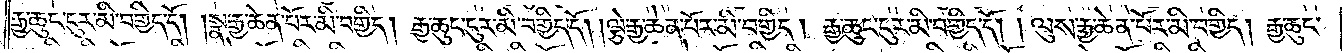རྒྱ་ཆུང་ངུར་མི་བགྱིད་དོ། །སྣ་རྒྱ་ཆེན་པོར་མི་བགྱིད། རྒྱ་ཆུང་ངུར་མི་བགྱིད་དོ། །ལྕེ་རྒྱ་ཆེན་པོར་མི་བགྱིད། རྒྱ་ཆུང་ངུར་མི་བགྱིད་དོ། །ལུས་རྒྱ་ཆེན་པོར་མི་བགྱིད། རྒྱ་ཆུང་
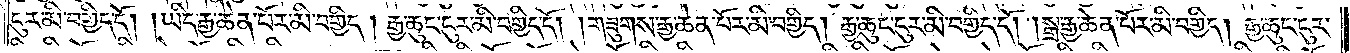ངུར་མི་བགྱིད་དོ། །ཡིད་རྒྱ་ཆེན་པོར་མི་བགྱིད། རྒྱ་ཆུང་ངུར་མི་བགྱིད་དོ། །གཟུགས་རྒྱ་ཆེན་པོར་མི་བགྱིད། རྒྱ་ཆུང་ངུར་མི་བགྱིད་དོ། །སྒྲ་རྒྱ་ཆེན་པོར་མི་བགྱིད། རྒྱ་ཆུང་ངུར་
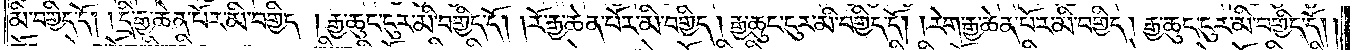མི་བགྱིད་དོ། །དྲི་རྒྱ་ཆེན་པོར་མི་བགྱིད། རྒྱ་ཆུང་ངུར་མི་བགྱིད་དོ། །རོ་རྒྱ་ཆེན་པོར་མི་བགྱིད། རྒྱ་ཆུང་ངུར་མི་བགྱིད་དོ། །རེག་རྒྱ་ཆེན་པོར་མི་བགྱིད། རྒྱ་ཆུང་ངུར་མི་བགྱིད་དོ། །
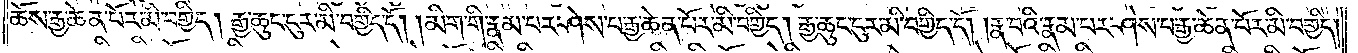ཆོས་རྒྱ་ཆེན་པོར་མི་བགྱིད། རྒྱ་ཆུང་ངུར་མི་བགྱིད་དོ། །མིག་གི་རྣམ་པར་ཤེས་པ་རྒྱ་ཆེན་པོར་མི་བགྱིད། རྒྱ་ཆུང་ངུར་མི་བགྱིད་དོ། །རྣ་བའི་རྣམ་པར་ཤེས་པ་རྒྱ་ཆེན་པོར་མི་བགྱིད།
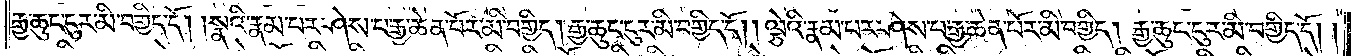རྒྱ་ཆུང་ངུར་མི་བགྱིད་དོ། །སྣའི་རྣམ་པར་ཤེས་པ་རྒྱ་ཆེན་པོར་མི་བགྱིད། རྒྱ་ཆུང་ངུར་མི་བགྱིད་དོ། །ལྕེའི་རྣམ་པར་ཤེས་པ་རྒྱ་ཆེན་པོར་མི་བགྱིད། རྒྱ་ཆུང་ངུར་མི་བགྱིད་དོ། །
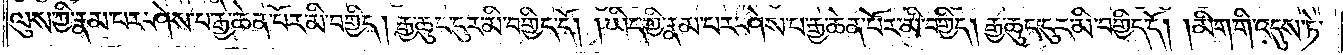ལུས་ཀྱི་རྣམ་པར་ཤེས་པ་རྒྱ་ཆེན་པོར་མི་བགྱིད། རྒྱ་ཆུང་ངུར་མི་བགྱིད་དོ། །ཡིད་ཀྱི་རྣམ་པར་ཤེས་པ་རྒྱ་ཆེན་པོར་མི་བགྱིད། རྒྱ་ཆུང་ངུར་མི་བགྱིད་དོ། །མིག་གི་འདུས་ཏེ་
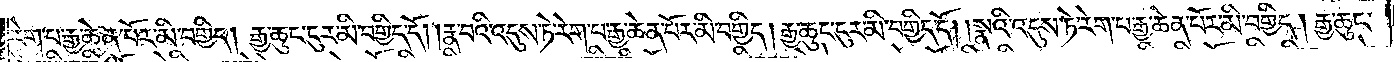རེག་པ་རྒྱ་ཆེན་པོར་མི་བགྱིད། རྒྱ་ཆུང་ངུར་མི་བགྱིད་དོ། །རྣ་བའི་འདུས་ཏེ་རེག་པ་རྒྱ་ཆེན་པོར་མི་བགྱིད། རྒྱ་ཆུང་ངུར་མི་བགྱིད་དོ། །སྣའི་འདུས་ཏེ་རེག་པ་རྒྱ་ཆེན་པོར་མི་བགྱིད། རྒྱ་ཆུང་
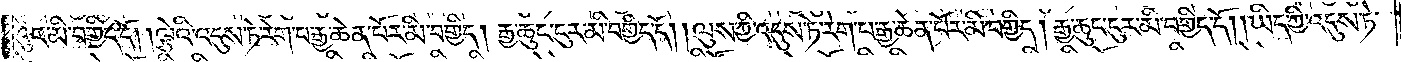ངུར་མི་བགྱིད་དོ། །ལྕེའི་འདུས་ཏེ་རེག་པ་རྒྱ་ཆེན་པོར་མི་བགྱིད། རྒྱ་ཆུང་ངུར་མི་བགྱིད་དོ། །ལུས་ཀྱི་འདུས་ཏེ་རེག་པ་རྒྱ་ཆེན་པོར་མི་བགྱིད། རྒྱ་ཆུང་ངུར་མི་བགྱིད་དོ། །ཡིད་ཀྱི་འདུས་ཏེ་
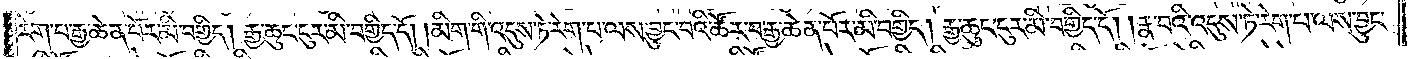རེག་པ་རྒྱ་ཆེན་པོར་མི་བགྱིད། རྒྱ་ཆུང་ངུར་མི་བགྱིད་དོ། །མིག་གི་འདུས་ཏེ་རེག་པ་ལས་བྱུང་བའི་ཚོར་བ་རྒྱ་ཆེན་པོར་མི་བགྱིད། རྒྱ་ཆུང་ངུར་མི་བགྱིད་དོ། །རྣ་བའི་འདུས་ཏེ་རེག་པ་ལས་བྱུང་
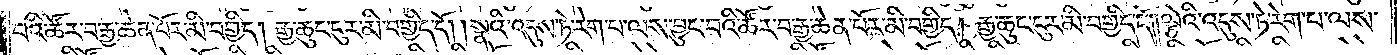བའི་ཚོར་བ་རྒྱ་ཆེན་པོར་མི་བགྱིད། རྒྱ་ཆུང་ངུར་མི་བགྱིད་དོ། །སྣའི་འདུས་ཏེ་རེག་པ་ལས་བྱུང་བའི་ཚོར་བ་རྒྱ་ཆེན་པོར་མི་བགྱིད། རྒྱ་ཆུང་ངུར་མི་བགྱིད་དོ། །ལྕེའི་འདུས་ཏེ་རེག་པ་ལས་
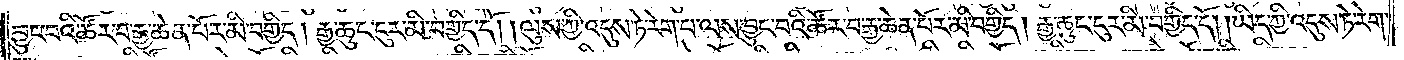བྱུང་བའི་ཚོར་བ་རྒྱ་ཆེན་པོར་མི་བགྱིད། རྒྱ་ཆུང་ངུར་མི་བགྱིད་དོ། །ལུས་ཀྱི་འདུས་ཏེ་རེག་པ་ལས་བྱུང་བའི་ཚོར་བ་རྒྱ་ཆེན་པོར་མི་བགྱིད། རྒྱ་ཆུང་ངུར་མི་བགྱིད་དོ། །ཡིད་ཀྱི་འདུས་ཏེ་རེག་
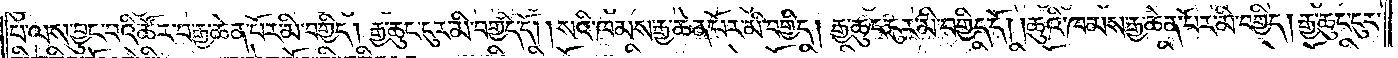པ་ལས་བྱུང་བའི་ཚོར་བ་རྒྱ་ཆེན་པོར་མི་བགྱིད། རྒྱ་ཆུང་ངུར་མི་བགྱིད་དོ། །སའི་ཁམས་རྒྱ་ཆེན་པོར་མི་བགྱིད། རྒྱ་ཆུང་ངུར་མི་བགྱིད་དོ། །ཆུའི་ཁམས་རྒྱ་ཆེན་པོར་མི་བགྱིད། རྒྱ་ཆུང་ངུར་
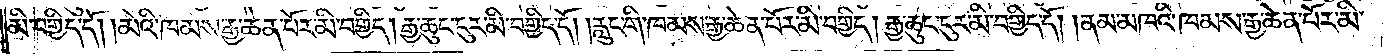མི་བགྱིད་དོ། །མེའི་ཁམས་རྒྱ་ཆེན་པོར་མི་བགྱིད། རྒྱ་ཆུང་ངུར་མི་བགྱིད་དོ། །རླུང་གི་ཁམས་རྒྱ་ཆེན་པོར་མི་བགྱིད། རྒྱ་ཆུང་ངུར་མི་བགྱིད་དོ། །ནམ་མཁའི་ཁམས་རྒྱ་ཆེན་པོར་མི་
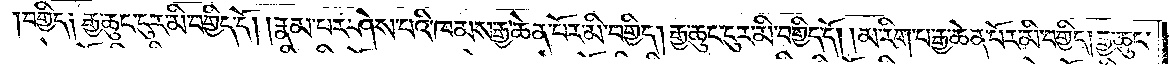བགྱིད༑ རྒྱ་ཆུང་ངུར་མི་བགྱིད་དོ། །རྣམ་པར་ཤེས་པའི་ཁམས་རྒྱ་ཆེན་པོར་མི་བགྱིད། རྒྱ་ཆུང་ངུར་མི་བགྱིད་དོ། །མ་རིག་པ་རྒྱ་ཆེན་པོར་མི་བགྱིད། རྒྱ་ཆུང་
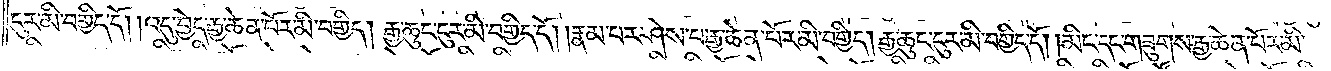ངུར་མི་བགྱིད་དོ། །འདུ་བྱེད་རྒྱ་ཆེན་པོར་མི་བགྱིད། རྒྱ་ཆུང་ངུར་མི་བགྱིད་དོ། །རྣམ་པར་ཤེས་པ་རྒྱ་ཆེན་པོར་མི་བགྱིད། རྒྱ་ཆུང་ངུར་མི་བགྱིད་དོ། །མིང་དང་གཟུགས་རྒྱ་ཆེན་པོར་མི་
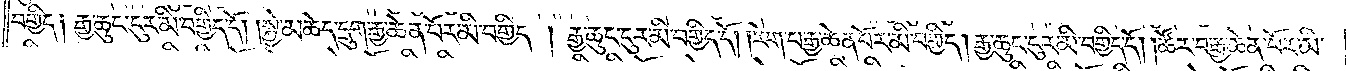བགྱིད༑ རྒྱ་ཆུང་ངུར་མི་བགྱིད་དོ། །སྐྱེ་མཆེད་དྲུག་རྒྱ་ཆེན་པོར་མི་བགྱིད། རྒྱ་ཆུང་ངུར་མི་བགྱིད་དོ། །རེག་པ་རྒྱ་ཆེན་པོར་མི་བགྱིད། རྒྱ་ཆུང་ངུར་མི་བགྱིད་དོ། །ཚོར་བ་རྒྱ་ཆེན་པོར་མི་
